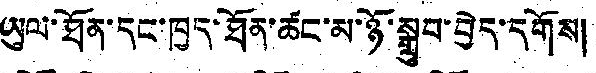ཡུལ་ཐོན་དང་ཁྱད་ཐོན་ཚང་མ་ཉོ་སྒྲུབ་བྱེད་དགོས།
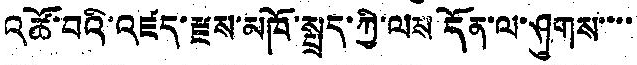འཚོ་བའི་འཛད་རྫས་མཁོ་སྤྲད་ཀྱི་ལས དོན་ལ་ཤུགས་་་་
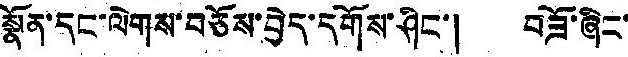སྣོན་དང་ལེགས་བཅོས་བྱེད་དགོས་ཤིང་། བཟོ་ཞིང་
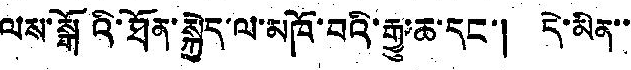ལས་སྒོའི་ཐོན་སྐྱེད་ལ་མཁོ་བའི་རྒྱུ་ཆ་དང་། དེ་མིན་་
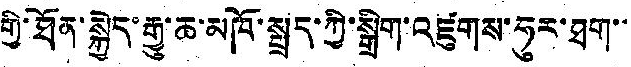གྱི་ཐོན་སྐྱེད་རྒྱུ་ཆ་མཁོ་སྤྲད་ཀྱི་སྒྲིག་འཛུགས་ཧུར་ཐག་་
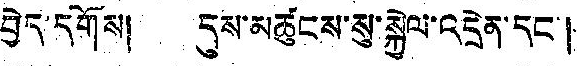བྱེད་དགོས། དུས་མཚུངས་སུ་སྐྱེལ་འདྲེན་དང་།
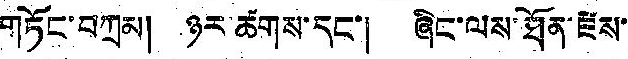གཏོང་བཀྲམ། ཉར་ཚགས་དང་། ཞིང་ལས་ཐོན་རྫས་
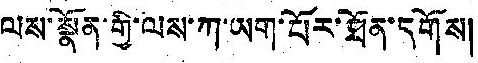ལས་སྣོན་གྱི་ལས་ཀ་ཡག་པོར་ཐོན་དགོས།
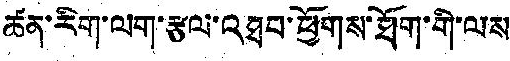ཚན་རིག་ལག་རྩལ་འཐབ་ཕྱོགས་ཐོག་གི་ལས
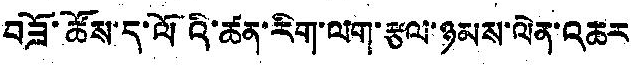བཟོ་ཚོས་ད་ལོའི་ཚན་རིག་ལག་རྩལ་ཉམས་ལེན་འཆར
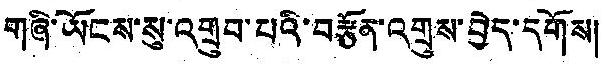གཞི་ཡོངས་སུ་འགྲུབ་པའི་བརྩོན་འགྲུས་བྱེད་དགོས།
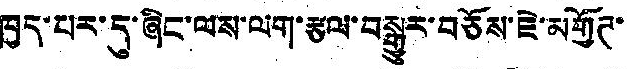ཁྱད་པར་དུ་ཞིང་ལས་ལག་རྩལ་བསྒྱུར་བཅོས་ཇེ་མགྱོཊ་
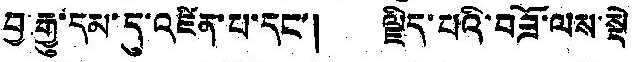བྱ་རྒྱུ་དམ་དུ་འཛིན་པ་དང་། ལྗིད་པའི་བཟོ་ལས་སྡེ
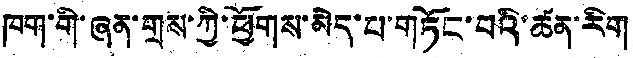ཁག་གི་ཞན་གྲས་ཀྱི་ཕྱོགས་མེད་པ་གཏོང་བའི་ཚན་རིག
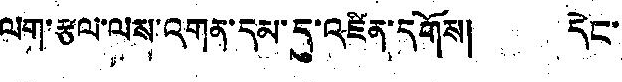ལག་རྩལ་ལས་འགན་དམ་དུ་འཛིན་དགོས། དེང་
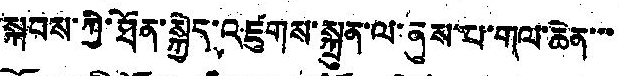སྐབས་ཀྱི་ཐོན་སྐྱེད་འཛུགས་སྐྲུན་ལ་ནུས་པ་གལ་ཆེན་་་
